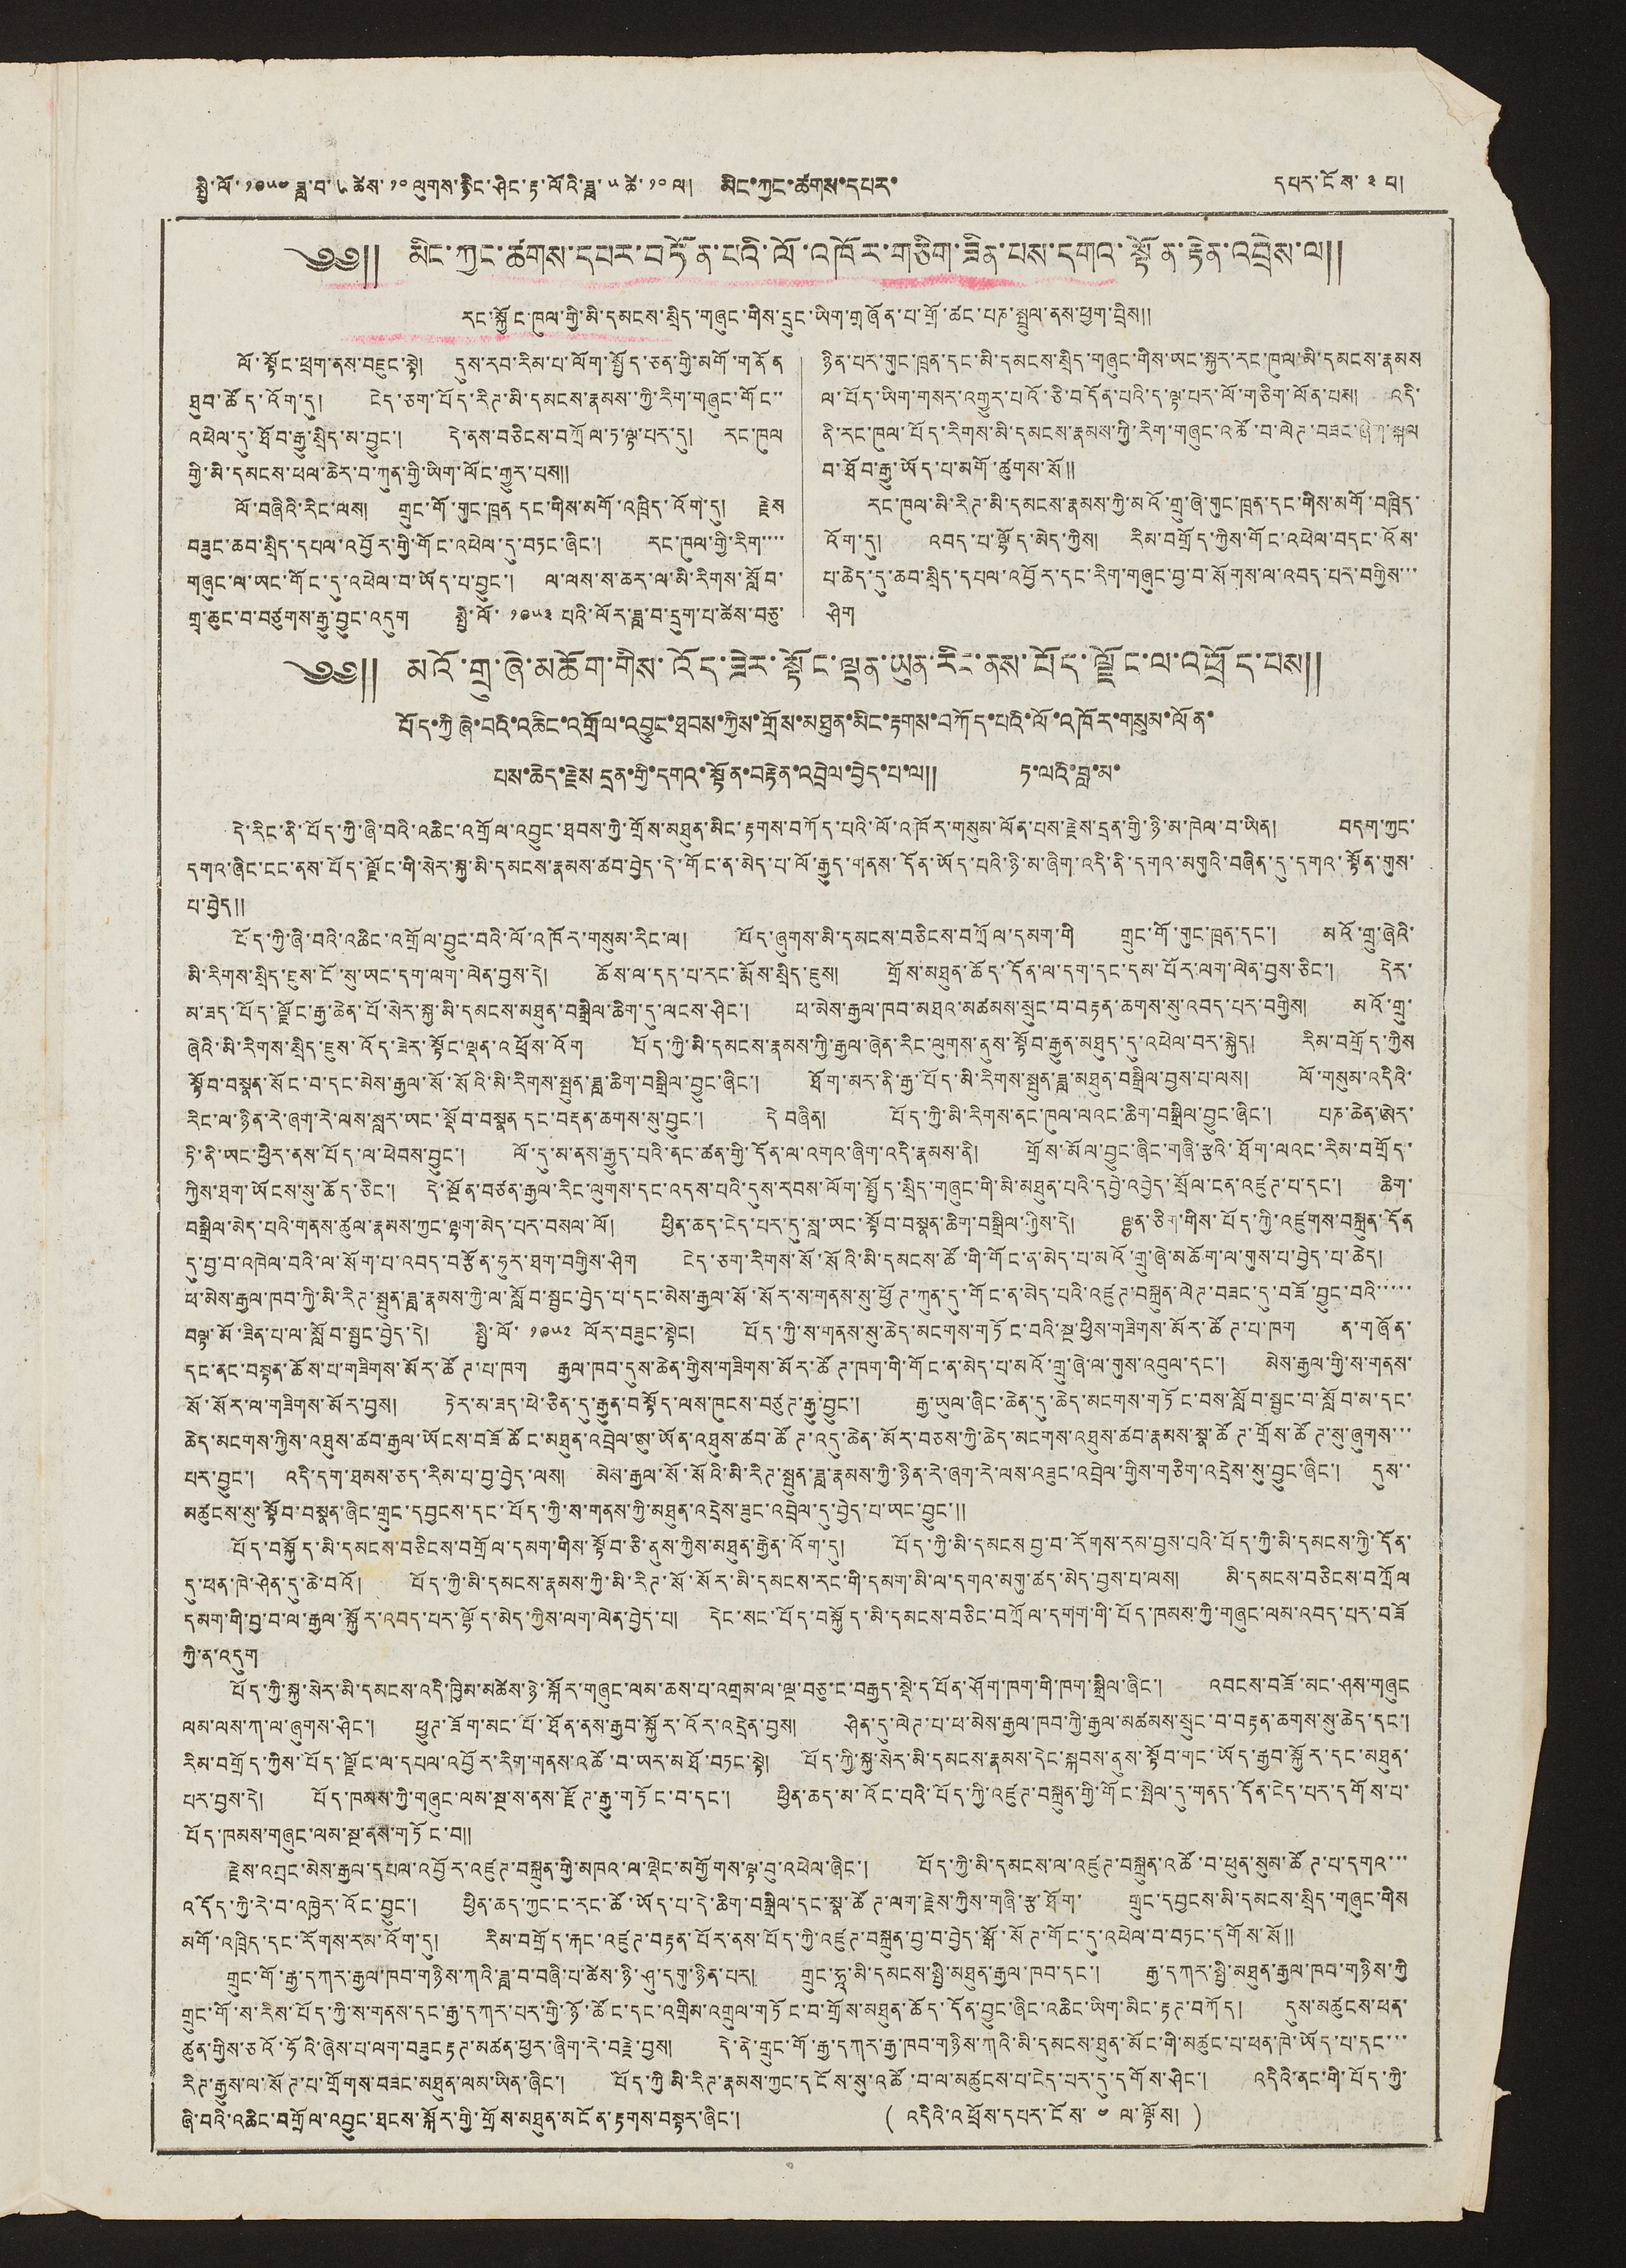སྤྱི་ལོ་ ༡༩༥༤ ཟླ་བ་ ༦ ཚེས་ ༡༠ ལུགས་རྙིང་ཤིང་རྟ་ལོའི་ཟླ་ ༥ ཚེ་ ༡༠ ལ། མིང་ཀྱང་ཚགས་དཔར་        དཔར་ངོས་ ༣ པ།
༄༅༎ མིང་ཀྱང་ཚགས་དཔར་བཏོན་པའི་ལོ་འཁོར་གཅིག་ཟིན་པས་དགའ་སྟོན་རྟེན་འབྲེས་ལ༎
རང་སྐྱོང་ཁུལ་གྱི་མི་དམངས་སྲིད་གཞུང་གིས་དྲུང་ཡིག་གཞོན་པ་གྲོ་ཚང་པཎ་སྤྲུལ་ནས་ཕྱག་བྲིས༎
ལོ་སྟོང་ཕྲག་ནས་བཇུང་སྟེ། དུས་རབ་རིམ་པ་ལོག་སྤྱོད་ཅན་གྱི་མགོ་གནོན
ཐུབ་ཚོད་འོག་དུ། ངེད་ཅག་བོད་རིཊ་མི་དམངས་རྣམས་་ཀྱི་རིག་གཞུང་གོང་་
འཕེལ་དུ་ཐོབ་རྒྱ་སྲིད་མ་བྱུང་། དེ་ནས་བཅིངས་བཀྲོལ་ཏ་ལྟ་པར་དུ། རང་ཁུལ
གྱི་མི་དམངས་ཕལ་ཆེར་བ་ཀུན་གྱི་ཡིག་ལོང་གྱུར་པས༎
ལོ་བཞིའི་རིང་ལས། གྲུང་གོ་གུང་ཁྲན དང་གིས་མགོ་འཁྲིད་འོག་དུ། རྗེས
བཟུང་ཆབ་སྲིད་དཔལ་འབྱོར་གྱི་གོང་འཕེལ་དུ་བཏང་ཞིང་། རང་ཁུལ་གྱི་རིག་་་་
གཞུང་ལ་ཡང་གོང་དུ་འཕེལ་བ་ཡོད་པ་བྱུང་། ལ་ལས་ས་ཆར་ལ་མི་རིགས་སློབ་
གྲྭ་ཆུང་བ་བཙུགས་རྒྱུ་བྱུང་འདུག སྤྱི་ལོ་ ༡༩༥༣ པའི་ལོར་ཟླ་བ་དྲུག་པ་ཚེས་བཅུ་
ཉིན་པར་གུང་ཁྲན་དང་མི་དམངས་སྲིད་གཞུང་གིས་ཡང་སྐྱར་རང་ཁུལ་མི་དམངས་རྣམས
ལ་བོད་ཡིག་གསར་འགྱུར་པའོ་ཅི་བདོན་པའི་ད་ལྟ་པར་ལོ་གཅིག་ལོན་པས། འདི་
ནི་རང་ཁུལ་བོད་རིགས་མི་དམངས་རྣམས་ཀྱི་རིག་གཞུང་འཚོ་བ་ལེཊ་བཟང་ཞིག་སྐལ
བ་ཐོབ་རྒྱུ་ཡོད་པ་མགོ་ཚུགས་སོ ༎
རང་ཁུལ་མི་རིཊ་མི་དམངས་རྣམས་ཀྱི་མའོ་གྲུ་ཞེ་གུང་ཁྲན་དང་གིས་མགོ་བཁྲིད་
འོག་དུ། འབད་པ་ལྷོད་མེད་ཀྱིས། རིམ་བགྲོད་ཀྱིས་གོང་འཕེལ་བདང་འོས་
པ་ཆེད་དུ་ཆབ་སྲིད་དཔལ་འབྱོར་དང་རིག་གཞུང་བྱ་བ་སོགས་ལ་འབད་པར་བགྱིས་་་
ཤིག
༄༅༎ མའོ་གྲུ་ཞེ་མཆོག་གིས་འོད་ཟེར་སྟོང་ལྡན་ཡུན་རིང་ནས་བོད་ལྗོང་ལ་འཕྲོད་པས༎
བོད་ཀྱི ཞེ་བའི་འཆིང་འགྲོལ་འབྱུང་ཐབས་ཀྱིས་གྲོས་མཐུན་མིང་རྟགས་བཀོད་པའི་ལོ་འཁོར་གསུམ་ལོན་
པས་ཆེད་རྗེས དྲན་གྱི་དགའ་སྟོན་བརྟེན་འབྲེལ་བྱེད་པ་ལ།
ཏ་ལའི་བླ་མ་
དེ་རིང་ནི་བོད་ཀྱི་ཞི་བའི་འཆིང་འགྲོལ་འབྱུང་ཐབས་ཀྱི་གྲོས་མཐུན་མིང་རྟགས་བཀོད་པའི་ལོ་འཁོར་གསུམ་ལོན་པས་རྗེས་དྲན་གྱི་ཉི་མ་ཁེལ་བ་ཡིན། བདག་ཀྱང་
དགའ་ཞིང་ངང་ནས་བོད་ལྗོང་གི་སེར་སྐྱ་མི་དམངས་རྣམས་ཚབ་བྱེད་དེ་གོང་ན་མེད་པ་ལོ་རྒྱུད་གནས་དོན་ཡོད་པའི་ཉི་མ་ཞིག་འདི་ནི་དགའ་མགུའི་བཞིན་དུ་དགའ་སྟོན་གུས་
པ་བྱེད༎
བོད་ཀྱི་ཞི་བའི་འཆིང་འགྲོལ་བྱུང་བའི་ལོ་འཁོར་གསུམ་རིང་ལ། བོད་ཞུགས་མི་དམངས་བཅིངས་བཀྲོལ་དམག་གི གྲུང་གོ་གུང་ཁྲན་དང་། མའོ་གྲུ་ཞེའི་
མི་རིགས་སྲིད་ཇུས་ངོ་སུ་ཡང་དག་ལག་ལེན་བྱས་དེ། ཆོས་ལ་དད་པ་རང་རྨོས་སྲིད་ཇུས། གྲོས་མཐུན་ཆོད་དོན་ལ་དག་དང་དམ་པོར་ལག་ལེན་བྱས་ཅིང་། དེར་
མ་ཟད་བོད་ལྗོང་རྒྱ་ཆེན་པོ་སེར་སྐྱ་མི་དམངས་མཐུན་བསྒྲིལ་ཆིག་དུ་ལངས་ཤིང་། ཕ་མེས་རྒྱལ་ཁབ་མཐའ་མཚམས་སྲུང་བ་བརྟན་ཆགས་སུ་འབད་པར་བགྱིས། མའོ་གྲུ་
ཞེའི་མི་རིགས་སྲིད་ཇུས་འོད་ཟེར་སྟོང་ལྡན་འཕྲོས་འོག བོད་ཀྱི་མི་དམངས་རྣམས་ཀྱི་རྒྱལ་ཞེན་རིང་ལུགས་ནུས་སྟོབ་རྒྱུན་མཐུད་དུ་འཕེལ་བར་སྐྱེད། རིམ་བགྲོད་ཀྱིས
སྟོབ་བསྣན་སོང་བ་དང་མེས་རྒྱལ་སོ་སོའི་མི་རིགས་སྤུན་ཟླ་ཆིག་བསྒྲིལ་བྱུང་ཞིང་། ཐོག་མར་ནི་རྒྱ་བོད་མི་རིགས་སྤུན་ཟླ་མཐུན་བསྒྲིལ་བྱས་པ་ལས། ལོ་གསུམ་འདིའི་
རིང་ལ་ཉིན་རེ་ཞག་རེ་ལས་སླར་ཡང་སྡོབ་བསྣན དང་བརྡན་ཆགས་སུ་བྱུང་། དེ བཞིན། བོད་ཀྱི་མི་རིགས་ནང་ཁུལ་ལའང་ཆིག་བསྒྲིལ་བྱུང་ཞིང་། པཎ་ཆེན་ཨེར་
ཏི་ནི་ཡང་ཕྱིར་ནས་བོད་ལ་ཕེབས་བྱུང་། ལོ་དུ་མ་ནས་རྒྱུད་པའི་ནང་ཚན་གྱི་དོན་ལ་འགའ་ཞིག་འདི་རྣམས་ནི། གྲོས་མོལ་བྱུང་ཞིང་གཞི་རྩའི་ཐོག་ལའང་རིམ་བགྲོད་
ཀྱིས་ཐག་ཡོངས་སུ་ཆོད་ཅིང་། དེ་སྔོན་བཙན་རྒྱལ་རིང་ལུགས་དང་འདས་པའི་དུས་རབས་ལོག་སྤྱོད་སྲིད་གཞུང་གི་མི་མཐུན་པའི་དབྱེ་འབྱེད་སྲོལ་ངན་འཛུཊ་པ་དང་། ཆིག་
བསྒྲིལ་མེད་པའི་གནས་ཚུལ་རྣམས་ཀྱང་ལྷག་མེད་པར་བསལ་ལོ། ཕྱིན་ཆད་ངེད་པར་དུ་སླ་ཡང་སྟོབ་བསྣན་ཆིག་བསྒྲིལ་གྱིས་དེ། ལྷན་ཅིག་གིས་བོད་ཀྱི་འཛུགས་བསྐྲུན་དོན
དུ་བྱ་བ་འཁེལ་བའི་ལ་སོག་པ་འབད་བརྩོན་ཧུར་ཐག་བགྱིས་ཤིག ངེད་ཅག་རིགས་སོ་སོའི་མི་དམངས་ཚོ་གི་གོང་ན་མེད་པ་མའོ་གྲུ་ཞེ་མཆོག་ལ་གུས་པ་བྱེད་པ་ཆེད།
ཕ་མེས་རྒྱལ་ཁབ་ཀྱི་མི་རིཊ་སྤུན་ཟླ་རྣམས་ཀྱི་ལ་སློབ་སྦྱང་བྱེད་པ་དང་མེས་རྒྱལ་སོ་སོར་ས་གནས་སུ་ཕྱོཊ་ཀུན་དུ་གོང་ན་མེད་པའི་འཛུཊ་བསྐྲུན་ལེཊ་བཟང་དུ་བཟོ་བྱུང་བའི་་་་་
བལྟ་མོ་ཟིན་པ་ལ་སློབ་སྦྱང་བྱེད་དེ། སྤྱི་ལོ་ ༡༩༥༢ ལོར་བཟུང་སྟེང། བོད་ཀྱི་ས་གནས་སུ་ཆེད་མངགས་གཏོང་བའི་སྔ་ཕྱིས་གཟིགས་མོར་ཚོཊ་པ་ཁག ན་གཞོན་
དང་ནང་བསྟན་ཆོས་པ་གཟིགས་མོར་ཚོཊ་པ་ཁག རྒྱལ་ཁབ་དུས་ཆེན་གྱིས་གཟིགས་མོར་ཚོཊ་ཁག་གི་གོང་ན་མེད་པ་མའོ་གྲུ་ཞེ་ལ་གུས་འབུལ་དང་། མེས་རྒྱལ་གྱི་ས་གནས་
སོ་སོར་ལ་གཟིགས་མོར་བྱས། ཏེར་མ་ཟད་ཕེ་ཅིན་དུ་རྒྱུན་བསྟོད་ལས་ཁུངས་བཙུཊ་རྒྱ་བྱུང་། རྒྱ་ཡུལ་ཞིང་ཆེན་དུ་ཆེད་མངགས་གཏོང་བས་སློབ་སྦྱང་བ་སློབ་མ་དང་།
ཆེད་མངགས་ཀྱིས་འཐུས་ཚབ་རྒྱལ་ཡོངས་བཟོ ཚོང་མཐུན་འབྲེལ་ཨུ་ཡོན་འཐུས་ཚབ་ཚོཊ་འདུ་ཆེན་མོར་བཅས་ཀྱི་ཆེད་མངགས་འཐུས་ཚབ་རྣམས་སྣ་ཚོ ཊ་གྲོས་ཚོ ཊ་སུ་ཞུགས་་་
པར་བྱུང་། འདི་དག་ཐམས་ཅད་རིམ་པ་བྱ་བྱེད་ལས། མེས་རྒྱལ་སོ་སོའི་མི་རིཊ་སྤུན་ཟླ་རྣམས་ཀྱི་ཉིན་རེ་ཞག་རེ་ལས་འཟུང་འབྲེལ་གྱིས་གཅིག་འདྲེས་སུ་བྱུང་ཞིང་། དུས་་
མཚུངས་སུ་སྟོབ་བསྣན་ཞིང་གྲུང་དབྱངས་དང་བོད་ཀྱི་ས་གནས་ཀྱི་མཐུན་འདྲེས་ཟུང་འབྲེལ་དུ་བྱེད་པ་ཡང་བྱུང་༎
བོད་བསྐྱོད་མི་དམངས་བཅིངས་བགྲོལ་དམག་གིས་སྟོབ་ཅི་ནུས་ཀྱིས་མཐུན་རྒྱེན་འོག་དུ། བོད་ཀྱི་མི་དམངས བྱ་བ་རོགས་རམ་བྱས་པའི་བོད་ཀྱི་མི་དམངས་ཀྱི་དོན་
དུ་ཕན་ཁེ་ཤེན་དུ་ཆེ་བའོ། བོད་ཀྱི་མི་དམངས་རྣམས་ཀྱི་མི་རིཊ་སོ་སོར་མི་དམངས་རང་གི་དམག་མི་ལ་དགའ་མགུ་ཚད་མེད་བྱས་པ་ལས། མི་དམངས་བཅིངས་བཀྲོལ
དམག་གི་བྱ་བ་ལ་རྒྱལ་སྐྱོར་འབད་པར་ལྷོད་མེད་ཀྱིས་ལག་ལེན་བྱེད་པ། དེང་སང་བོད་བསྐྱོད་མི་དམངས་བཅིང་བཀྲོལ་དགག་གི་བོད་ཁམས་ཀྱི་གཞུང་ལམ་འབད་པར་བཟོ
ཀྱི་ན་འདུག
བོད་ཀྱི་སྐྱ་སེར་མི་དམངས་འདི་ཁྱིམ་མཚེས་ཉེ་སྐོར་གཞུང་ལམ་ཆས་པ་འགྲམ་ལ་ལྔ་བཅུ་ང་བརྒྱད་སྡེ་དཔོན་ཤོག་ཁག་གི་ཁག་སྒྲིལ་ཞིང་། འབངས་བཟོ་མང་ཤས་གཞུང
ལམ་ལས་ཀ་ལ་ཞུགས་ཤིང་། ཕྱུཊ་ཟོག་མང་པོ་ཐོན་ནས་རྒྱབ་སྐྱོར་འོར་འདྲེན་བྱས། ཤིན་དུ་ལེཊ་པ་ཕ་མེས་རྒྱལ་ཁབ་ཀྱི་རྒྱལ་མཚམས་སྲུང་བ་བརྟན་ཆགས་སུ་ཆེད་དང་།
རིམ་བགྲོད་ཀྱིས་བོད་ལྗོང་ལ་དཔལ་འབྱོར་རིག་གནས་འཚོ་བ་ཡར་མཐོ་བཏང་སྟེ། བོད་ཀྱི་སྐྱ་སེར་མི་དམངས་རྣམས་དེང་སྐབས་ནུས་སྟོབ་གང་ཡོད་རྒྱབ་སྐྱོར་དང་མཐུན་
པར་བྱས་དེ། བོད་ཁམས་ཀྱི་གཞུང་ལམ་སྔ་ས་ནས་རྫོཊ་རྒྱུ་གཏོང་བ་དང་། ཕྱིན་ཆད་མ་འོང་བའི་བོད་ཀྱི་འཛུཊ་བསྐྲུན་གྱི་གོང་སྤེལ་དུ་གནད་དོན་ངེད་པར་དགོས་པ་
བོད་ཁམས་གཞུང་ལམ་སྔ་ནས་གཏོང་བ༎
རྗེས་འབྲང་མེས་རྒྱལ་དཔལ་འབྱོར་འཛུཊ་བསྐྲུན་གྱི་མཁའ་ལ་ལྡེང་མགྱོགས་ལྟ་བུ་འཕེལ་ཞིང་། བོད་ཀྱི་མི་དམངས་ལ་འཛུཊ་བསྐྲུན་འཚོ་བ་ཕུན་སུམ་ཚོཊ་པ་དགའ་་་
འདོད་ཀྱི་རེ་བ་འཁྱེར་འོང་བྱུང་། ཕྱིན་ཆད་ཀྱང་ང་རང་ཚོ་ཡོད་པ་དེ་ཆིག་བསྒྲིལ་དང་སྣ་ཚོཊ་ལག་རྗེས་ཀྱིས་གཞི་རྩ་ཐོག་ གྲུང་དབྱངས་མི་དམངས་སྲིད་གཞུང་གིས
མགོ་འཁྲིད་དང་རོགས་རམ་འོག་དུ། རིམ་བགྲོད་རྐང་འཛུཊ་བརྟན་པོར་ནས་བོད་ཀྱི་འཛུཊ་བསྐྲུན་བྱ་བ་བྱེད་སྒོ་སོཊ་གོང་དུ་འཕེལ་བ་བཏང་དགོས་སོ༎
གྲུང་གོ་རྒྱ་དཀར་རྒྱལ་ཁབ་གཉིས་ཀའི་ཟླ་བ་བཞི་པ་ཚེས་ཉི་ཤུ་དགུ་ཉིན་པར། གྲུང་ཧཱ་མི་དམངས་སྤྱི་མཐུན་རྒྱལ་ཁབ་དང་། རྒྱ་དཀར་སྤྱི་མཐུན་རྒྱལ་ཁབ་གཉིས་ཀྱི
གྲུང་གོ་ས་རིས་བོད་ཀྱི་ས་གནས་དང་རྒྱ་དཀར་པར་གྱི་ཉོ་ཚོང་དང་འགྲིམ་འགྲུལ་གཏོང་བ་གྲོས་མཐུན་ཆོད་དོན་བྱང་ཞིང་འཆིང་ཡིག་མིང་རྟཊ་བཀོད། དུས་མཚུངས་ཕན་
ཚུན་གྱིས་ཅའོ་ཧོའི་ཞེས་པ་ལག་བཟུང རྟཊ་མཚན་ཕྱར་ཞིག་རེ་བརྗེ་བྱས། དེ་ནེ་གྲུང་གོ་རྒྱ་དཀར་རྒྱ་ཁབ་གཉིས་ཀའི་མི་དམངས་ཐུན་མོང་གི་མཚུང་པ་ཕན་ཁེ་ཡོད་པ་དང་་་
རིཊ་རྒྱུས་ལ་སོཊ་པ་གྲོགས་བཟང་མཐུན་ལམ་ཡིན་ཞིང་། བོད་ཀྱི མི་རིཊ་རྣམས་ཀྱང་དངོས་སུ་འཚོ་བ་ལ་མཚུངས་པ་ངེད་པར་དུ་དགོས་ཤིང་། འདིའི་ནང་གི་བོད་ཀྱི་
ཞི་བའི་འཆིང་བགྲོལ་འབྱུང་ཐངས་སྐོར་གྱི་གྲོས་མཐུན་མངོན་རྟགས་བསྟར་ཞིང་།
( འདིའི་འཕྲོས་དཔར་ངོས་ ༤ ལ་ལྟོས། )
